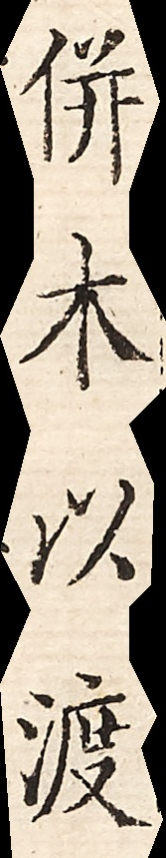並木以渡
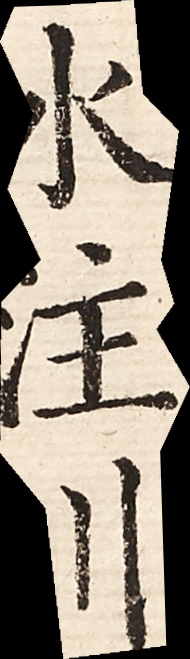水注川
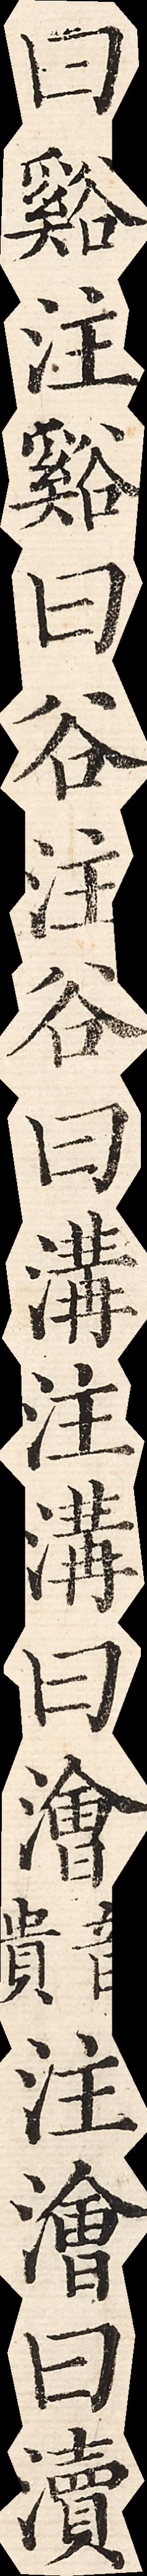曰谿注谿曰穀注穀曰溝注溝曰澮注澮曰瀆
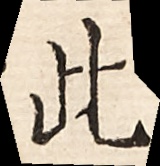此
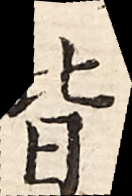皆
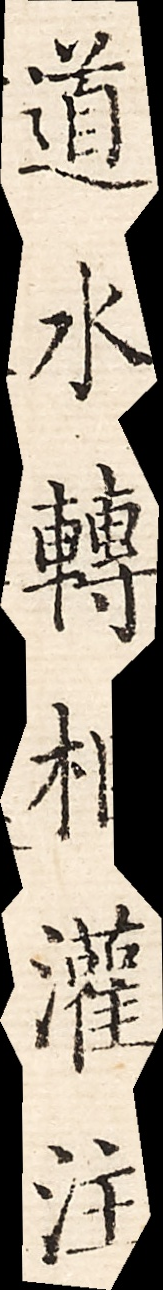道水轉相灌注
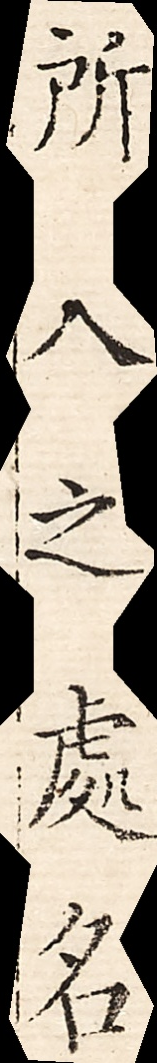所入之處名
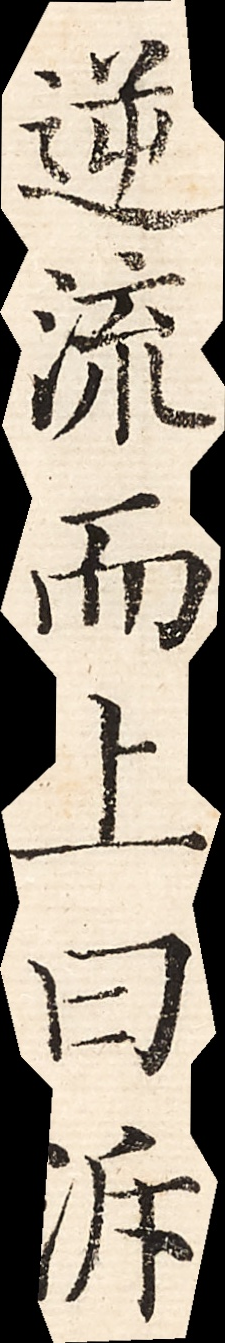逆流而上曰溯
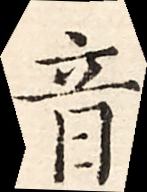音
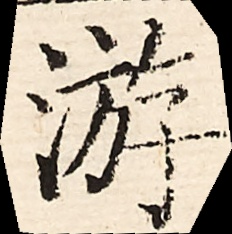遊
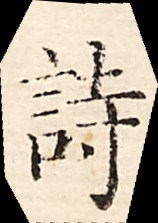詩
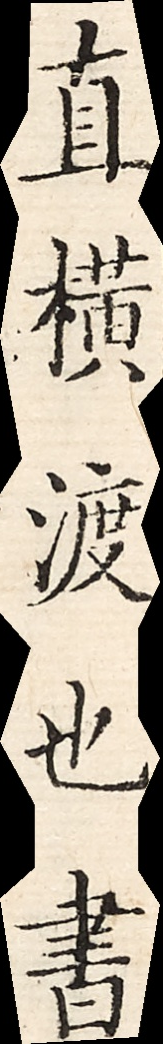直橫渡也書
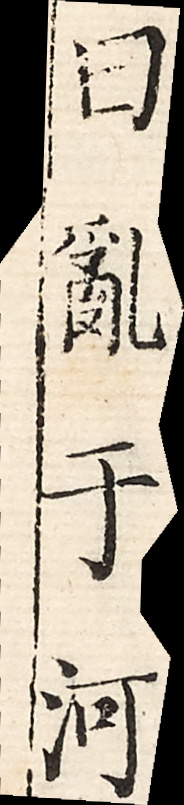曰亂於河
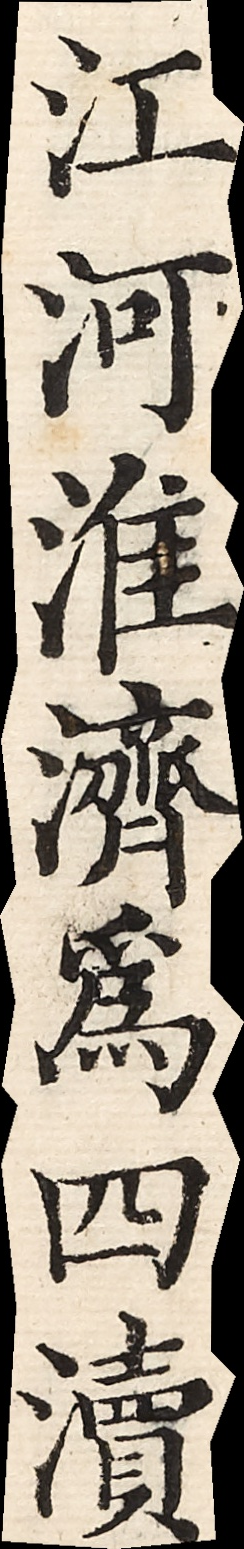江河淮濟為四瀆
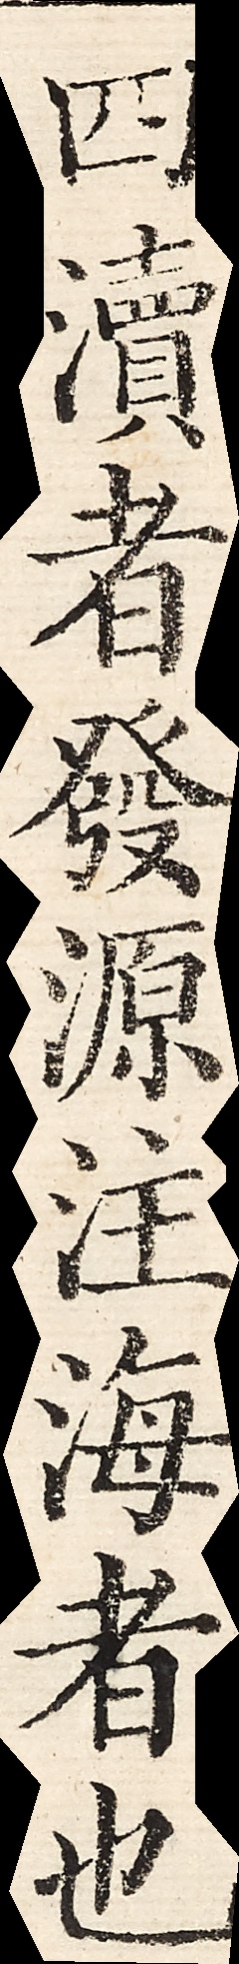四瀆者發源注海者也
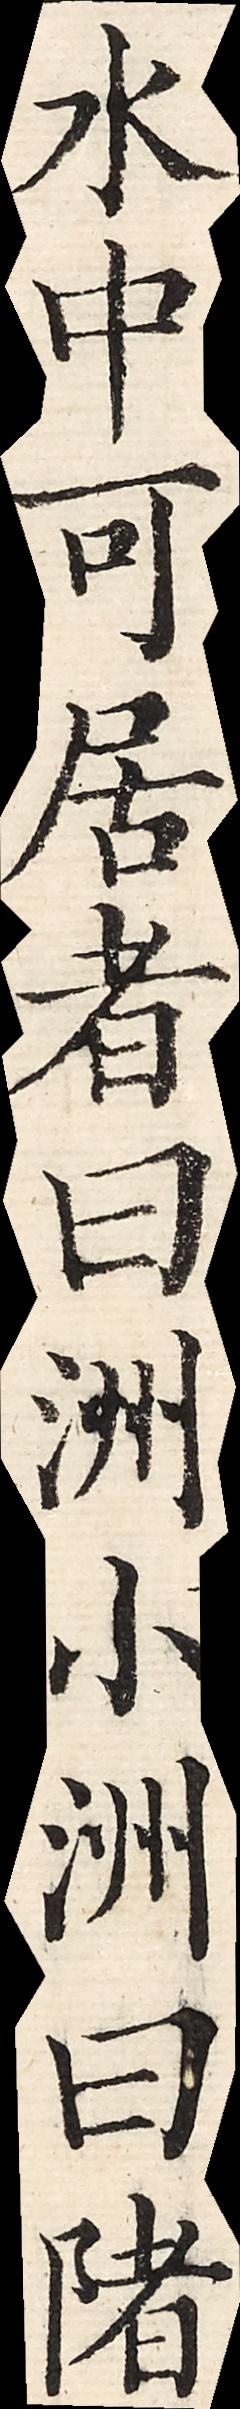水中可居者曰洲小洲曰陼
